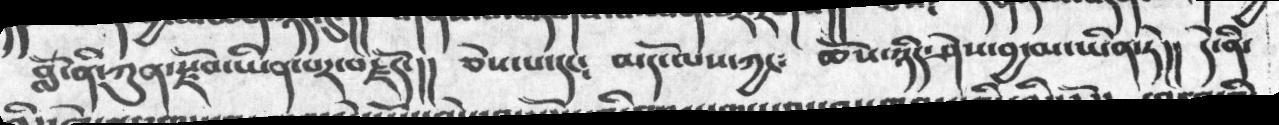བློ་ནི་ཀུན་སྫོབ་ཡིན་པར་བརྗོད་།།   ཅེས་པ་དང༴  མདོ་ལས་ཀྱང༴  ཆོས་ཉིད་ཤེས་བྱ་མ་ཡིན་ཏེ།།    དེ་ནི་
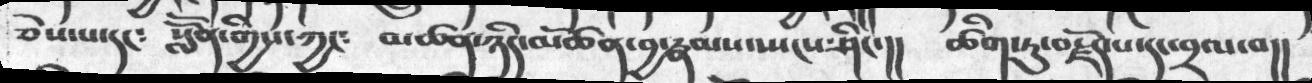ཅེས་པ་དང༴   སློོན་གྱིས་ཀྱང༴   མཚན་ཉིད་མཚོན་བྱ་རྣམས་སྤངས་ཤེང་།།     ཚིག་ཏུ་བརྫོད་པ་དང་བྲལ་བ།།
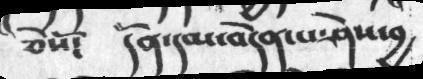ཅེསོ༴    དོན་དམ་བདེན་པ་ཤེས་བྱ
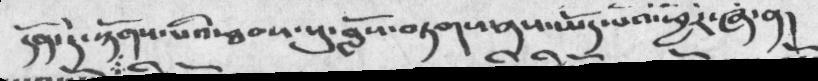དོན་དེ་སྟོགས་པའི་ཐབས་སུ་བློས་བཏགས་ནས་ཡོད་པའི་ཕྱིར་ཞེ་ན།
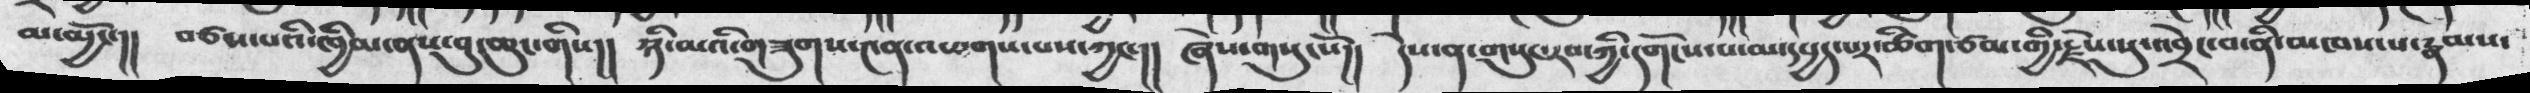མེ་མྱོང་།།  བཙས་པའི་ཁྱིམ་ནས་བུ་ཆུང་གིས།།  ཉི་མའི་གཟུགས་༤ན་འཕགས་པས་ཀྱང་།།  ཞེས་གསུངསོ།།  དེས་ན་གསུང་རབ་ཀྱི་དགོངས་པ་མ་དཔྱད་པར་ཚིག་ཙམ་གྱི་རྗེས་སུ་འབྲེང་བ་ནི་མཁས་པ་རྣམས་
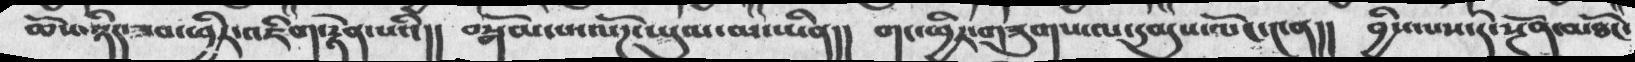ཆོས་ཉིད་ཟབ་ཕྱིར་འཇིག་རྟེན་པའི།།  བསྒོམ་པ་ལོཌ་ཡུལ་མ་ཡིན།།  གང་ཕྱིར་གཟུགས་ལ་དམུས་ལོང་༤ན།།  བྱིས་པས་དེ་སྔོན་མཐོང་
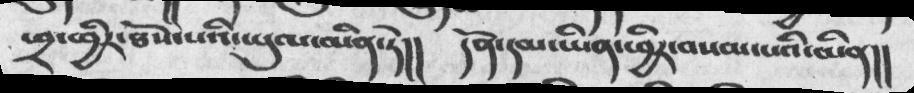ཕྲ་ཕྱིར་ཐོས་པའི་ཡུལ་མིན་ཏེ།།  དོན་དམ་ཡིན་ཕྱིར་བསམ་པའི་མིན།།
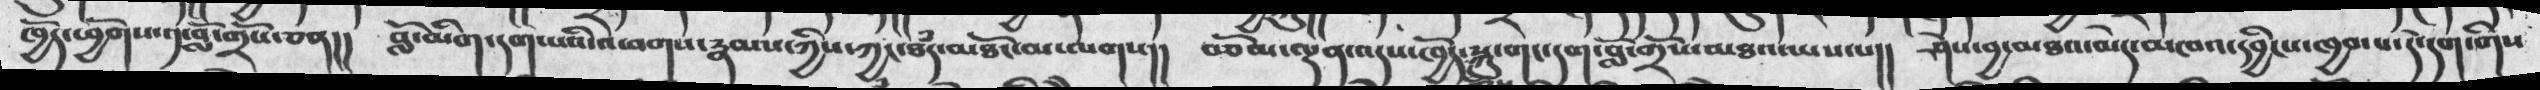ཁྱོད་ཕྱོགས་༡་བློ་གྲོས་ཅན།།  བློ་མིག་དག་པའི་འཕགས་རྣམས་ཀྱིས་ཀྱང་ཐཾད་མཐོང་མ་ལགས།།  བཅོམ་ལྡན་འདས་ཁྱོད་སྐུ་གང་དག་བློ་གྲོས་མཐའ་ཡས་པ།།  ཤེས་བྱ་མཐའ་མེད་མཁའ་དབྱིངས་ཁྱབ་པ་དེ་དག་གིས
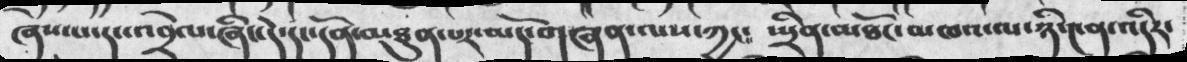ཞེས་པ་དང་འབྲེལ་ཞིང་དེ་དང་དོན་མཐུན་པར་མདོ་གཞན་ལས་ཀྱང༴  སྤྲིན་མཐོང་མཁའ་ལ་ཉི་༤ན་འདིར་
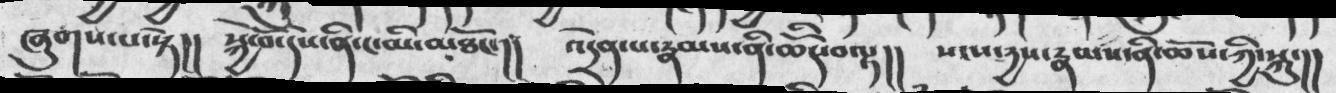ཞུགས་པ་སྟེ།། སྐྱེ་བོ་དེས་ནི་ང་མི་མཐོང་།།  འདྲེན་པ་རྣམས་ནི་ཆོདི་བལྟ།།  སངས་དྱས་རྣམས་ནི་ཆོས་ཀྱི་སྐུ་།།
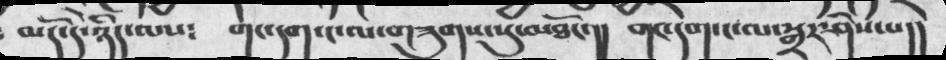མདོ་དེ་ཉིད་ལས་  གང་དག་ང་ལ་གཟུགས་སུ་མཐོང་།།   གང་དེག་ལ་སྒྲར་ཤིས་པ།།
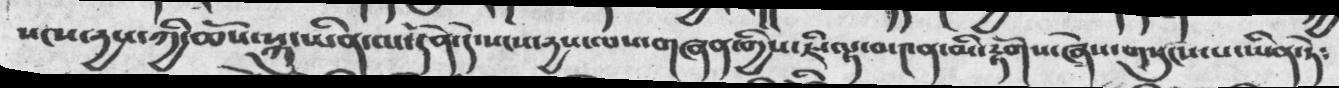སངས་དྱས་ཀྱི་ཆོས་སྐུ་ཡིན་ལ་དོན་དེ་སངས་དྱས་ལས་གཞན་གྱིས་ཇི་ལྟ་བ་༤ན་མི་རྟོགས་ཞེས་གསུངས་པ་ཡིན་ཏེ༴
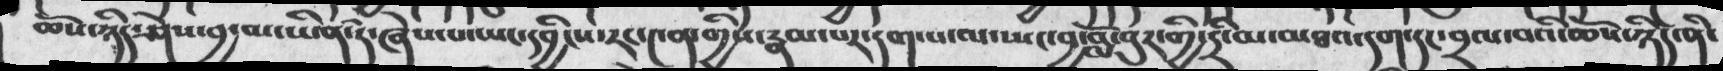ཆོས་ཉིད་ཤེས་བྱ་མ་ཡིན་དེ་ཞེས་པ་ཡང་དབྱིངས་རང་༤ན་གྱིས་རྣམ་པར་དག་པ་ལ་ཡང་བྱ་བློ་བུར་གྱི་དྲི་མ་མཐའ་དག་བྲལ་བའི་ཆོས་ཉིད་ནི་
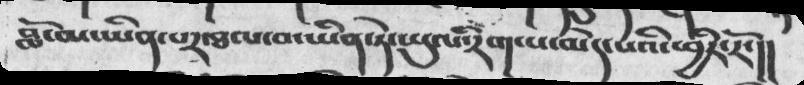བློ་མ་ཡིན་པར་ཐལ་བ་ཡིན་ཏེ་ཡུལ་རིག་པ་མེད་པའི་ཕྱིར་རོ།།
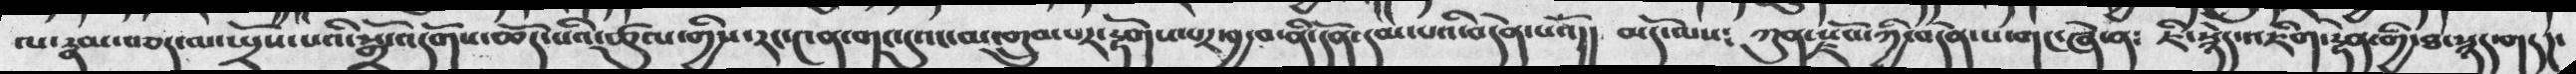ལ་རྣམ་བཅད་མ་སྤྲོས་པའི་སྒྲོ་འདོགས་ཆོད་པའི་ཚུལ་གྱིས་རང་༤ན་གང་དུའང་མ་སྒྲུབ་པར་རྟོགས་པར་བྱ་བ་ནི་དོན་དམ་པའི་བདེན་པའོ།།  མདོ་ལས༴  ཀུན་རྫོབ་ཀྱི་བདེན་པ་གང་ཞེ་ན་ཇི་སྙིད་འཇིག་རྟེན་གྱི་ཐ་སྙད་གདཌ་
